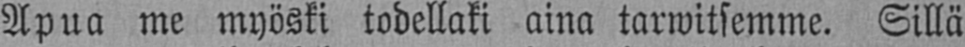Apua me myöski todellaki aina tarwitsemme. Sillä
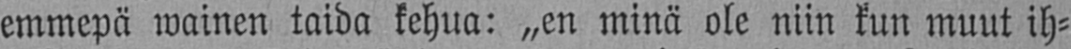emmepä wainen taida kehua: „en minä ole niin kun muut ih-
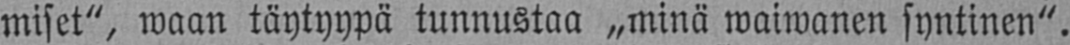miset", waan täytyypä tunnustaa „minä waiwanen syntinen".
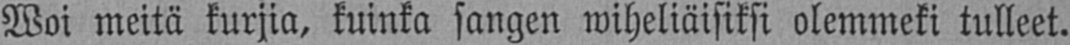Woi meitä kurjia, kuinka sangen wiheliäisiksi olemmeki tulleet.
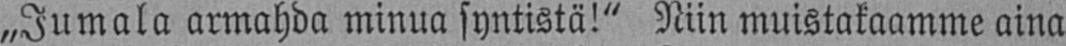„Jumala armahda minua syntistä!" Niin muistakaamme aina
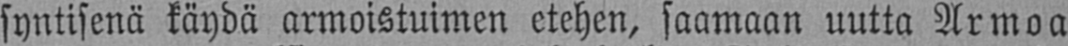syntisenä käydä armoistuimen etehen, saamaan uutta Armoa
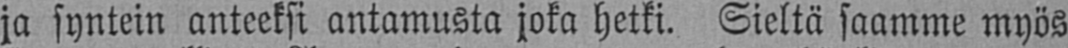ja syntein anteeksi antamusta joka hetki. Sieltä saamme myös
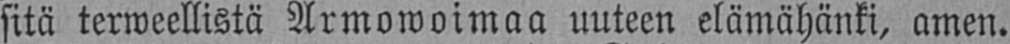sitä terweellistä Armowoimaa uuteen elämähänki, amen.
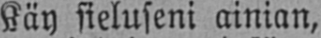Käy sieluseni ainian,
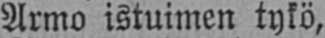Armo istuimen tykö,
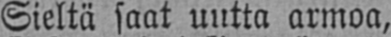Sieltä saat uutta armoa,
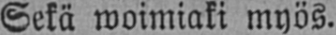Sekä woimiaki myös.
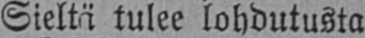Sieltä tulee lohdutusta
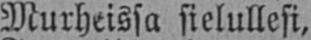Murheissa sielullesi,
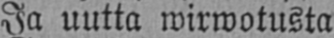Ja uutta wirwotusta
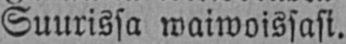Suurissa waiwoissasi.
